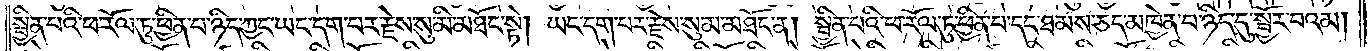སྦྱིན་པའི་ཕ་རོལ་ཏུ་ཕྱིན་པ་ཉིད་ཀྱང་ཡང་དག་པར་རྗེས་སུ་མི་མཐོང་སྟེ། ཡང་དག་པར་རྗེས་སུ་མ་མཐོང་ན། སྦྱིན་པའི་ཕ་རོལ་ཏུ་ཕྱིན་པ་དང་ཐམས་ཅད་མཁྱེན་པ་ཉིད་དུ་སྦྱོར་བའམ།
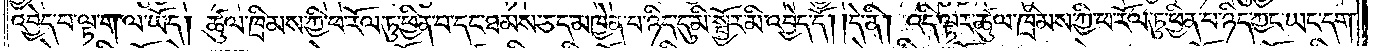འབྱེད་པ་ལྟ་ག་ལ་ཡོད། ཚུལ་ཁྲིམས་ཀྱི་ཕ་རོལ་ཏུ་ཕྱིན་པ་དང་ཐམས་ཅད་མཁྱེན་པ་ཉིད་དུ་མི་སྦྱོར་མི་འབྱེད་དོ། །དེ་ནི། འདི་ལྟར་ཚུལ་ཁྲིམས་ཀྱི་ཕ་རོལ་ཏུ་ཕྱིན་པ་ཉིད་ཀྱང་ཡང་དག་
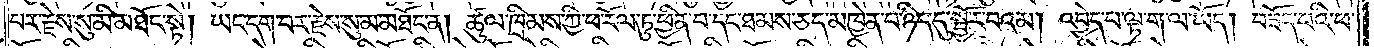པར་རྗེས་སུ་མི་མཐོང་སྟེ། ཡང་དག་པར་རྗེས་སུ་མ་མཐོང་ན། ཚུལ་ཁྲིམས་ཀྱི་ཕ་རོལ་ཏུ་ཕྱིན་པ་དང་ཐམས་ཅད་མཁྱེན་པ་ཉིད་དུ་སྦྱོར་བའམ། འབྱེད་པ་ལྟ་ག་ལ་ཡོད། བཟོད་པའི་ཕ་
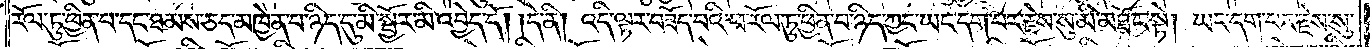རོལ་ཏུ་ཕྱིན་པ་དང་ཐམས་ཅད་མཁྱེན་པ་ཉིད་དུ་མི་སྦྱོར་མི་འབྱེད་དོ། །དེ་ནི། འདི་ལྟར་བཟོད་པའི་ཕ་རོལ་ཏུ་ཕྱིན་པ་ཉིད་ཀྱང་ཡང་དག་པར་རྗེས་སུ་མི་མཐོང་སྟེ། ཡང་དག་པར་རྗེས་སུ་
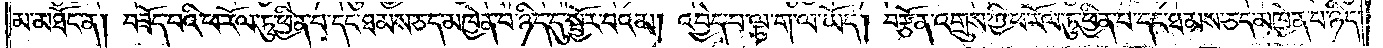མ་མཐོང་ན། བཟོད་པའི་ཕ་རོལ་ཏུ་ཕྱིན་པ་དང་ཐམས་ཅད་མཁྱེན་པ་ཉིད་དུ་སྦྱོར་བའམ། འབྱེད་པ་ལྟ་ག་ལ་ཡོད། བརྩོན་འགྲུས་ཀྱི་ཕ་རོལ་ཏུ་ཕྱིན་པ་དང་ཐམས་ཅད་མཁྱེན་པ་ཉིད་
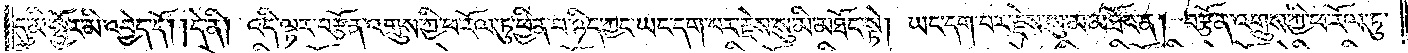དུ་མི་སྦྱོར་མི་འབྱེད་དོ། །དེ་ནི། འདི་ལྟར་བརྩོན་འགྲུས་ཀྱི་ཕ་རོལ་ཏུ་ཕྱིན་པ་ཉིད་ཀྱང་ཡང་དག་པར་རྗེས་སུ་མི་མཐོང་སྟེ། ཡང་དག་པར་རྗེས་སུ་མ་མཐོང་ན། བརྩོན་འགྲུས་ཀྱི་ཕ་རོལ་ཏུ་
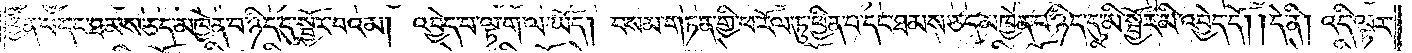ཕྱིན་པ་དང་ཐམས་ཅད་མཁྱེན་པ་ཉིད་དུ་སྦྱོར་བའམ། འབྱེད་པ་ལྟ་ག་ལ་ཡོད། བསམ་གཏན་གྱི་ཕ་རོལ་ཏུ་ཕྱིན་པ་དང་ཐམས་ཅད་མཁྱེན་པ་ཉིད་དུ་མི་སྦྱོར་མི་འབྱེད་དོ། །དེ་ནི། འདི་ལྟར་
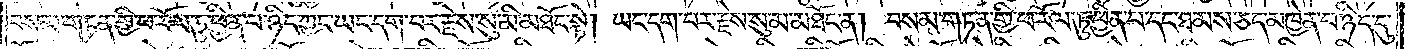བསམ་གཏན་གྱི་ཕ་རོལ་ཏུ་ཕྱིན་པ་ཉིད་ཀྱང་ཡང་དག་པར་རྗེས་སུ་མི་མཐོང་སྟེ། ཡང་དག་པར་རྗེས་སུ་མ་མཐོང་ན། བསམ་གཏན་གྱི་ཕ་རོལ་ཏུ་ཕྱིན་པ་དང་ཐམས་ཅད་མཁྱེན་པ་ཉིད་དུ་
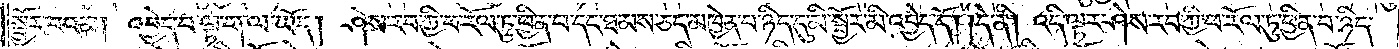སྦྱོར་བའམ། འབྱེད་པ་ལྟ་ག་ལ་ཡོད། ཤེས་རབ་ཀྱི་ཕ་རོལ་ཏུ་ཕྱིན་པ་དང་ཐམས་ཅད་མཁྱེན་པ་ཉིད་དུ་མི་སྦྱོར་མི་འབྱེད་དོ། །དེ་ནི། འདི་ལྟར་ཤེས་རབ་ཀྱི་ཕ་རོལ་ཏུ་ཕྱིན་པ་ཉིད་
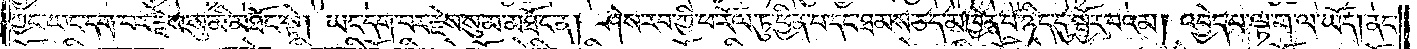ཀྱང་ཡང་དག་པར་རྗེས་སུ་མི་མཐོང་སྟེ། ཡང་དག་པར་རྗེས་སུ་མ་མཐོང་ན། ཤེས་རབ་ཀྱི་ཕ་རོལ་ཏུ་ཕྱིན་པ་དང་ཐམས་ཅད་མཁྱེན་པ་ཉིད་དུ་སྦྱོར་བའམ། འབྱེད་པ་ལྟ་ག་ལ་ཡོད། ནང་
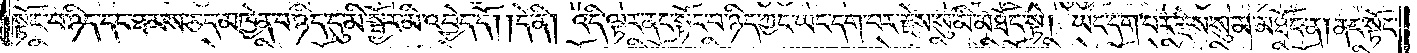སྟོང་པ་ཉིད་དང་ཐམས་ཅད་མཁྱེན་པ་ཉིད་དུ་མི་སྦྱོར་མི་འབྱེད་དོ། །དེ་ནི། འདི་ལྟར་ནང་སྟོང་བ་ཉིད་ཀྱང་ཡང་དག་པར་རྗེས་སུ་མི་མཐོང་སྟེ། ཡང་དག་པར་རྗེས་སུ་མ་མཐོང་ན། ནང་སྟོང་
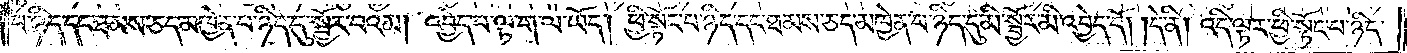པ་ཉིད་དང་ཐམས་ཅད་མཁྱེན་པ་ཉིད་དུ་སྦྱོར་བའམ། འབྱེད་པ་ལྟ་ག་ལ་ཡོད། ཕྱི་སྟོང་པ་ཉིད་དང་ཐམས་ཅད་མཁྱེན་པ་ཉིད་དུ་མི་སྦྱོར་མི་འབྱེད་དོ། །དེ་ནི། འདི་ལྟར་ཕྱི་སྟོང་པ་ཉིད་
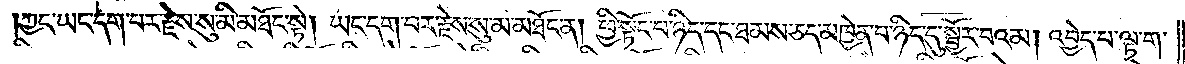ཀྱང་ཡང་དག་པར་རྗེས་སུ་མི་མཐོང་སྟེ། ཡང་དག་པར་རྗེས་སུ་མ་མཐོང་ན། ཕྱི་སྟོང་པ་ཉིད་དང་ཐམས་ཅད་མཁྱེན་པ་ཉིད་དུ་སྦྱོར་བའམ། འབྱེད་པ་ལྟ་ག་
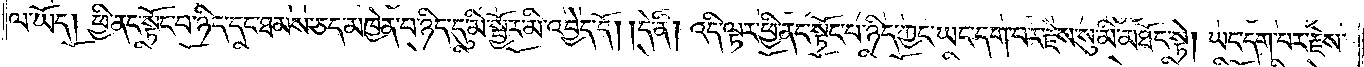ལ་ཡོད། ཕྱི་ནང་སྟོང་པ་ཉིད་དང་ཐམས་ཅད་མཁྱེན་པ་ཉིད་དུ་མི་སྦྱོར་མི་འབྱེད་དོ། །དེ་ནི། འདི་ལྟར་ཕྱི་ནང་སྟོང་པ་ཉིད་ཀྱང་ཡང་དག་པར་རྗེས་སུ་མི་མཐོང་སྟེ། ཡང་དག་པར་རྗེས་
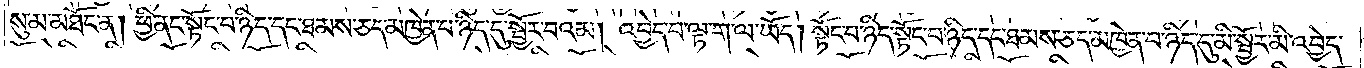སུ་མ་མཐོང་ན། ཕྱི་ནང་སྟོང་པ་ཉིད་དང་ཐམས་ཅད་མཁྱེན་པ་ཉིད་དུ་སྦྱོར་བའམ། འབྱེད་པ་ལྟ་ག་ལ་ཡོད། སྟོང་པ་ཉིད་སྟོང་པ་ཉིད་དང་ཐམས་ཅད་མཁྱེན་པ་ཉིད་དུ་མི་སྦྱོར་མི་འབྱེད་
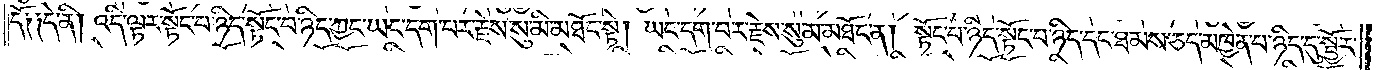དོ༑ ༑དེ་ནི། འདི་ལྟར་སྟོང་པ་ཉིད་སྟོང་པ་ཉིད་ཀྱང་ཡང་དག་པར་རྗེས་སུ་མི་མཐོང་སྟེ། ཡང་དག་བར་རྗེས་སུ་མ་མཐོང་ན། སྟོང་པ་ཉིད་སྟོང་པ་ཉིད་དང་ཐམས་ཅད་མཁྱེན་པ་ཉིད་དུ་སྦྱོར་
